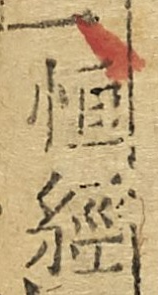恆經
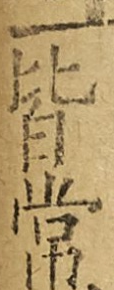皆常
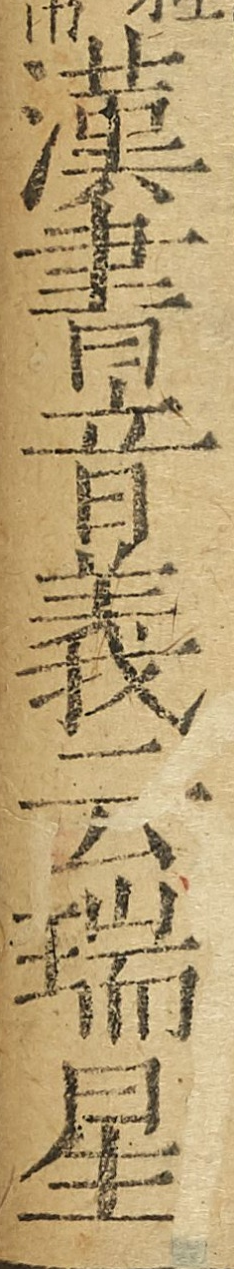漢書音義云瑞星
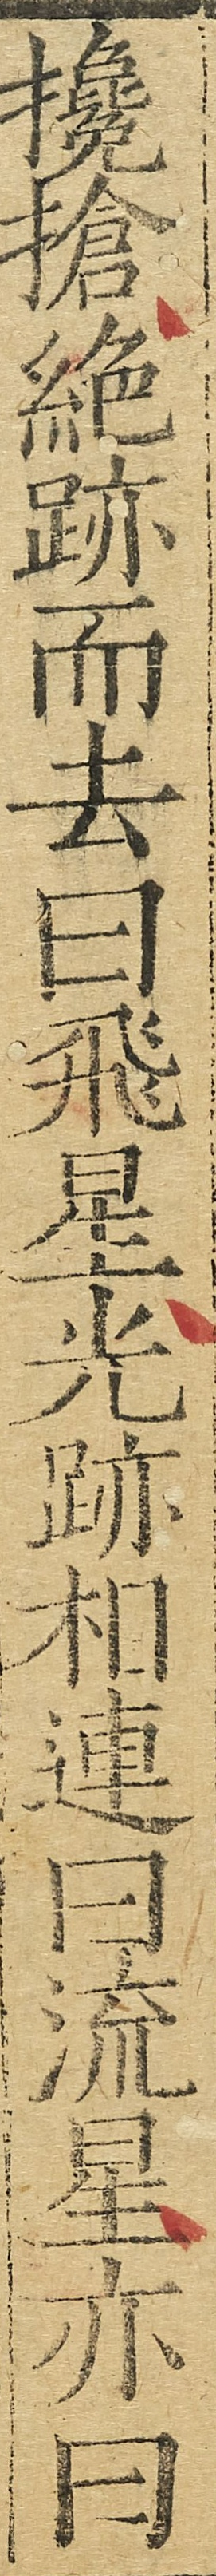攙搶絕跡而去曰飛星光跡相連曰流星亦曰
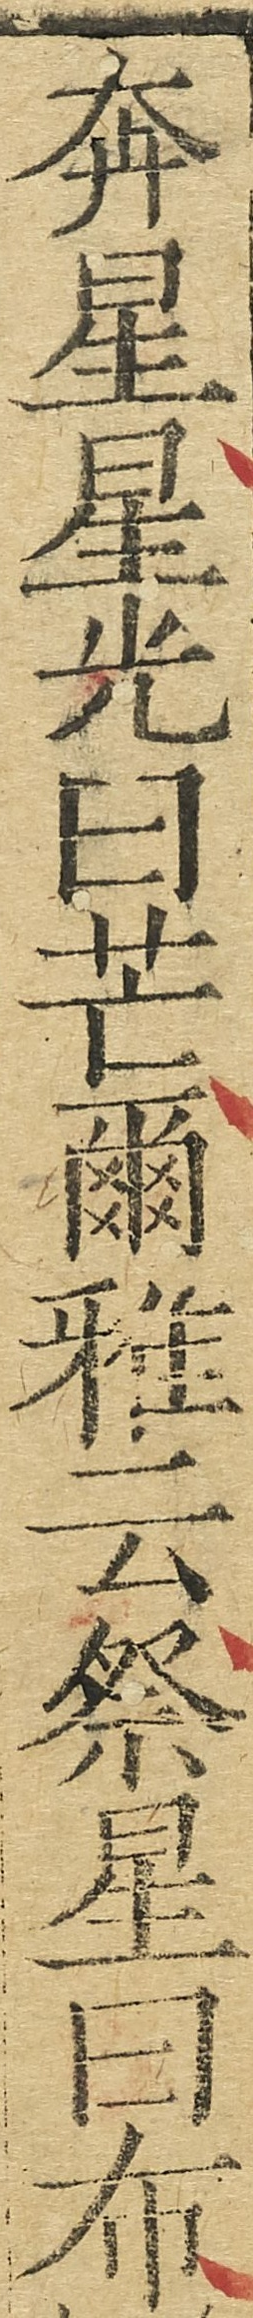奔星星光曰芒爾雅云祭星曰布
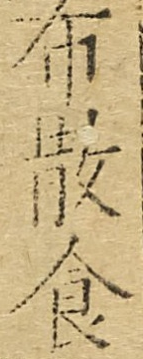布散食
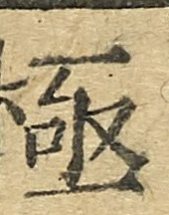極
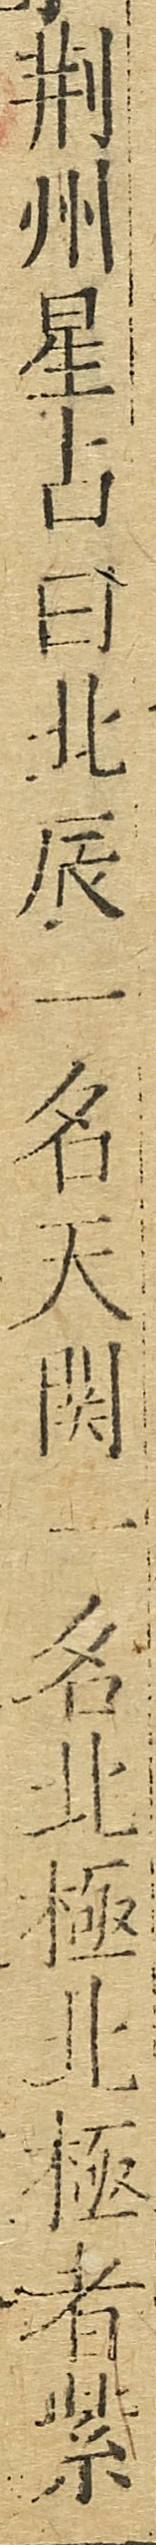荊州星占曰北辰一名天關一名北極北極者紫
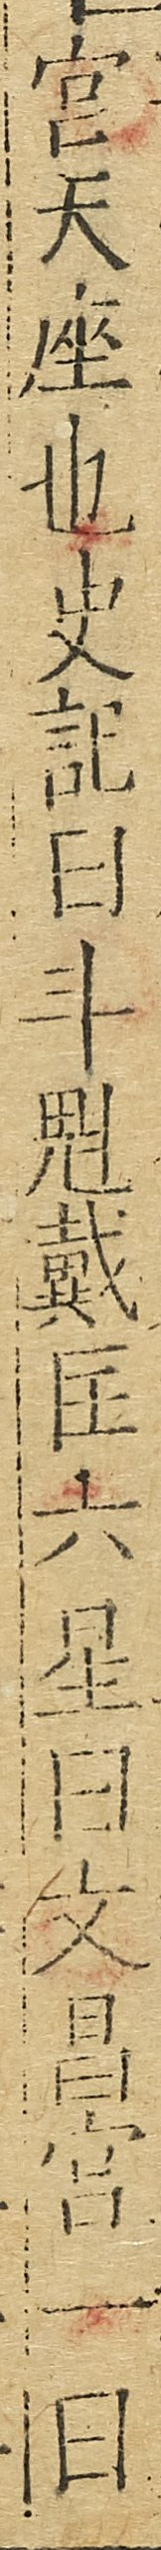宮天座也史記曰斗魁戴匡六星曰文昌宮一曰
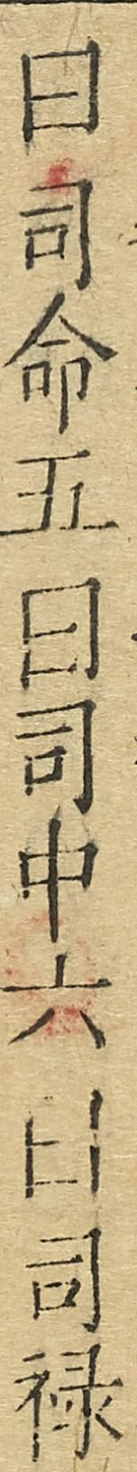曰司命五曰司中六曰司祿
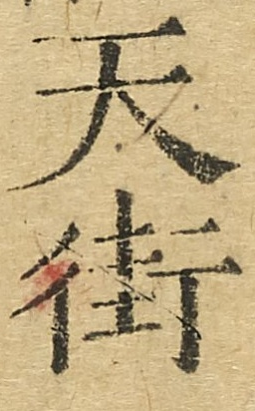天街
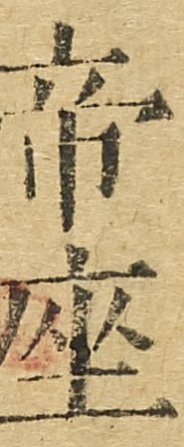帝座
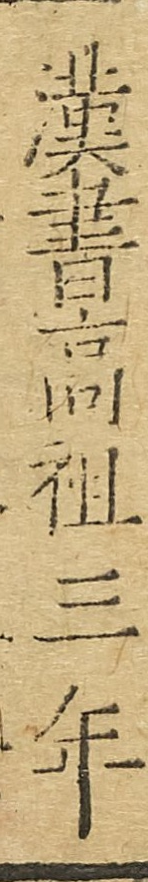漢書高祖三年
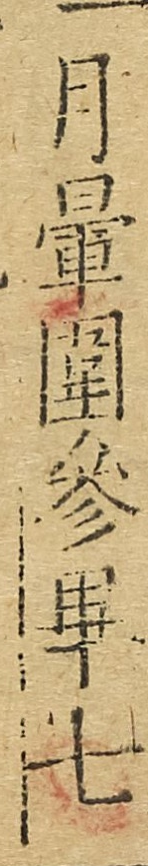月暈圍參畢七
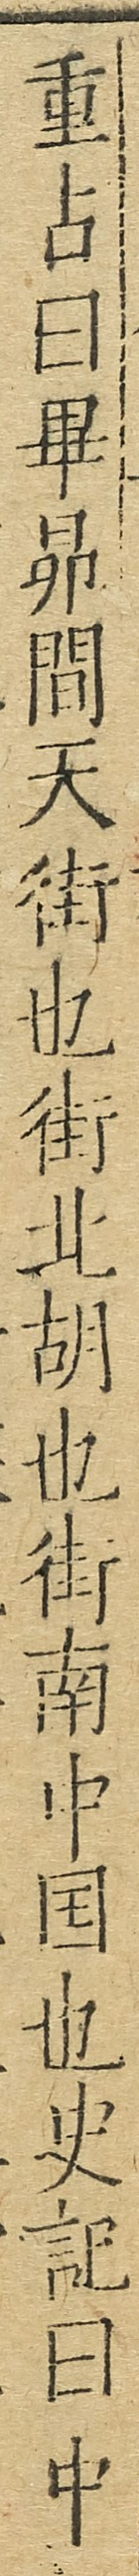重占曰畢昴間天街也街北胡也街南中國也史記曰中
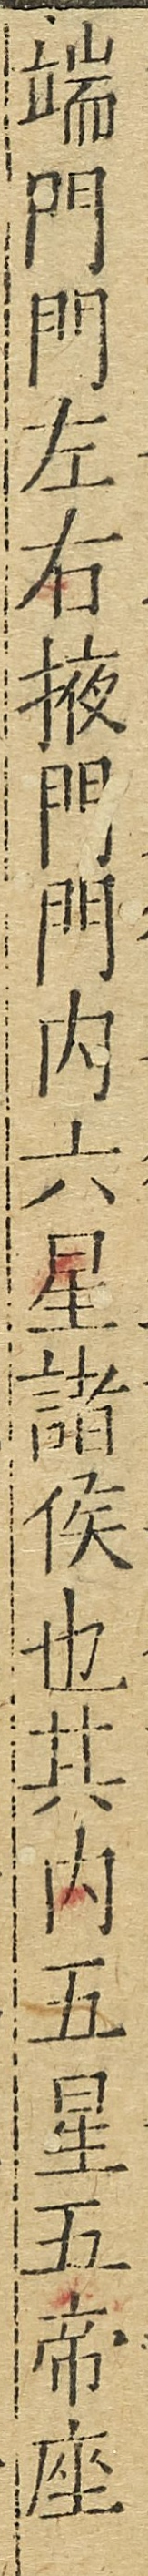端門門左右掖門門內六星諸侯也其內五星五帝座
